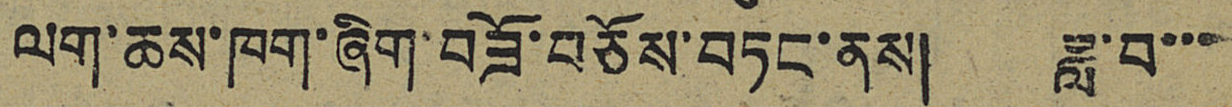ལག་ཆས་ཁག་ཞིག་བཟོ་བཅོས་བཏང་ནས། ཟླ་བ་་་
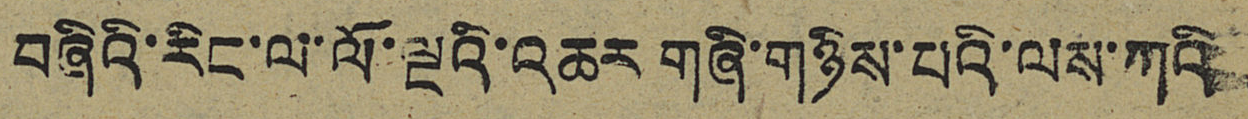བཞིའི་རིང་ལ་ལོ་ལྔའི་འཆར གཞི་གཉིས་པའི་ལས་ཀའི
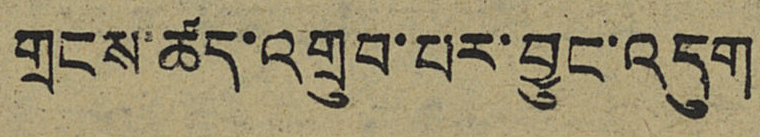གྲངས་ཚད་འགྲུབ་པར་བྱུང་བདུག
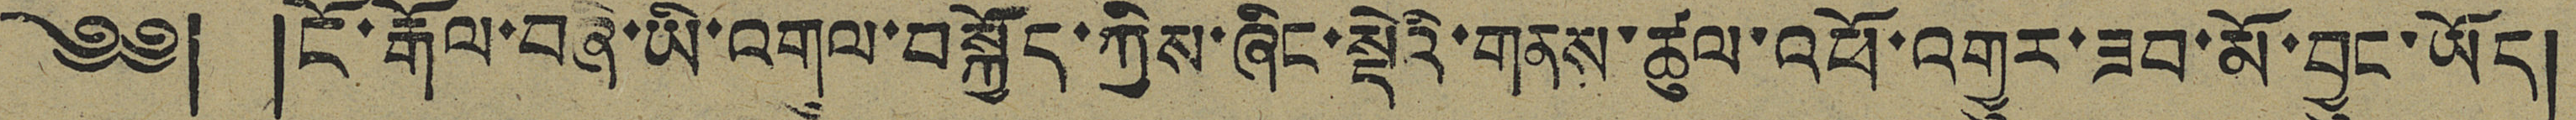༄༅། །ངོ་རྒོལ་བཞི་ཡི་འགུལ་བསྐྱོད་ཀྱིས་ཞིང་སྡེའི་གནས་ཚུལ་འཕོ་འགྱུར་ཟབ་མོ་བྱུང་ཡོད།
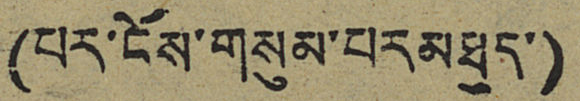(པར་ངོས་གསུམ་པར་མཐུད་)
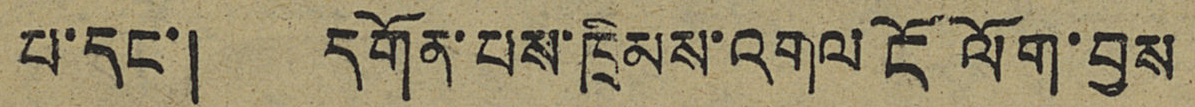པ་དང་། དགོན་པས་ཁྲིམས་འགལ་ངོ ལོག་བྱས
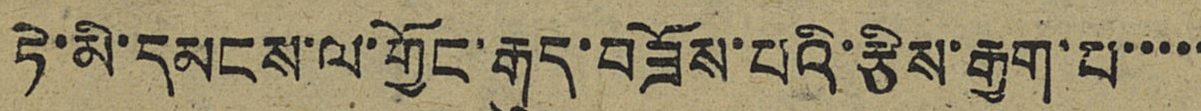ཏེ་མི་དམངས་ལ་གྱོང་རྒུད་བཟོས་པའི་རྩིས་རྒྱག་པ་་་་་
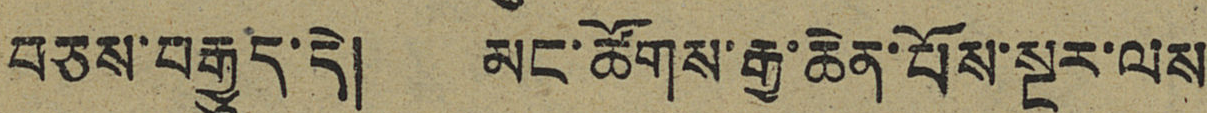བཅས་བརྒྱུད་དེ། མང་ཚོགས་རྒྱ་ཆེན་པོས་སྔར་ལས
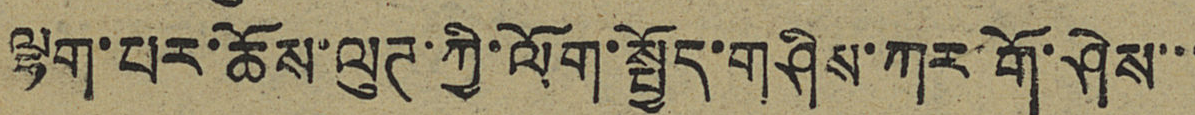ལྷག་པར་ཆོས་ལུཊ་ཀྱི་ལོག་སྤྱོད་གཤིས་ཀར་གོ་ཤེས་་་
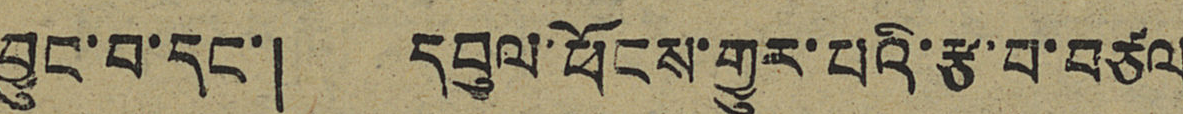བྱུང་བ་དང་། དབུལ་ཕོངས་གྱུར་པའི་རྩ་བ་བཙལ
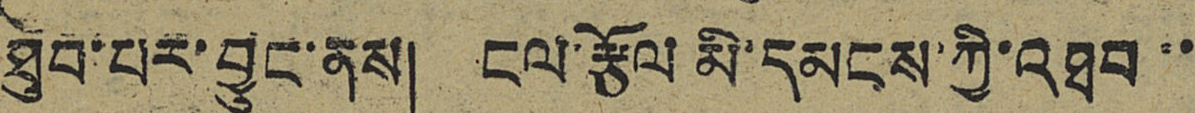ཐུབ་པར་བྱུང་ནས། ངལ་རྩོལ་མི་དམངས་ཀྱི་འཐབ་་
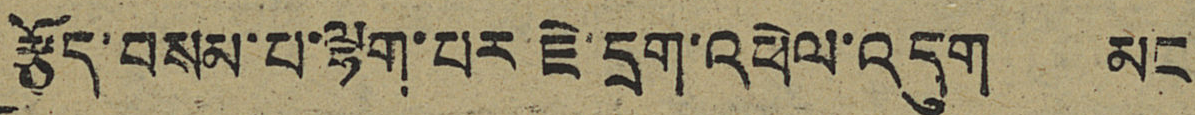རྩོད་བསམ་པ་ལྷག་པར་ཇེ་དྲག་འཕེལ་འདུག མང་
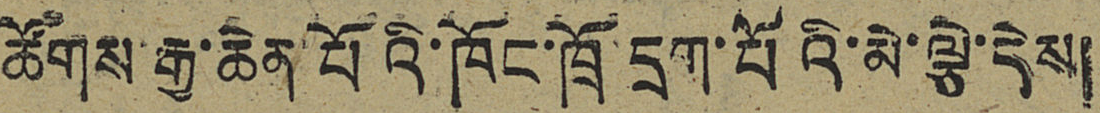ཚོགས་རྒྱ་ཆེན་པོའི་ཁོང་ཁྲོ་དྲག་པོའི་མེ་ལྕེ་དེས།
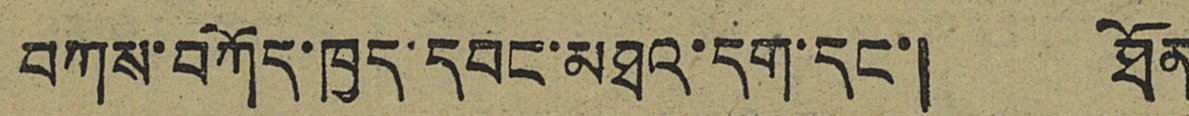བཀས་བཀོད་ཁྱད་དབང་མཐའ་དག་དང་། ཐོན་
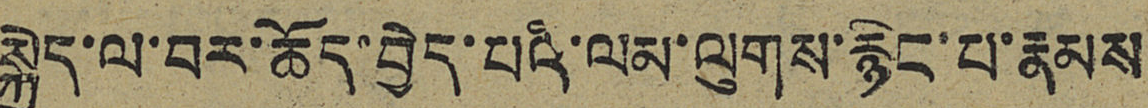སྐྱེད་ལ་བར་ཆོད་བྱེད་པའི་ལམ་ལུགས་རྙིང་པ་རྣམས
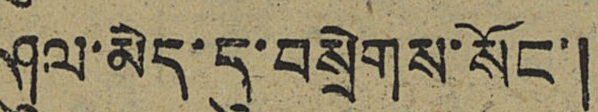ཤུལ་མེད་དུ་བསྲེགས་སོང་།
